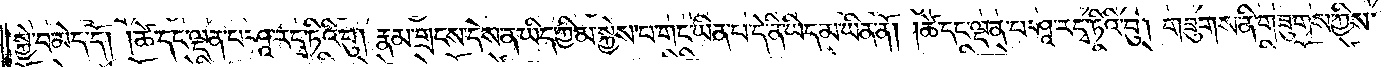སྐྱེ་བ་མེད་དོ། །ཚེ་དང་ལྡན་པ་ཤཱ་ར་དྭ་ཏིའི་བུ། རྣམ་གྲངས་དེས་ན་ཡིད་ཀྱི་མ་སྐྱེས་པ་གང་ཡིན་པ་དེ་ནི་ཡིད་མ་ཡིན་ནོ། །ཚེ་དང་ལྡན་པ་ཤཱ་ར་དྭ་ཏིའི་བུ། གཟུགས་ནི་གཟུགས་ཀྱིས་
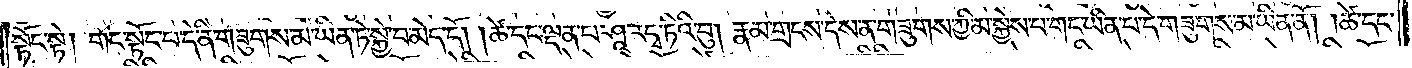སྟོང་སྟེ། གང་སྟོང་པ་དེ་ནི་གཟུགས་མ་ཡིན་ཏེ་སྐྱེ་བ་མེད་དོ། །ཚེ་དང་ལྡན་པ་ཤཱ་ར་དྭ་ཏིའི་བུ། རྣམ་གྲངས་དེས་ན་གཟུགས་ཀྱི་མ་སྐྱེས་པ་གང་ཡིན་པ་དེ་གཟུགས་མ་ཡིན་ནོ། །ཚེ་དང་
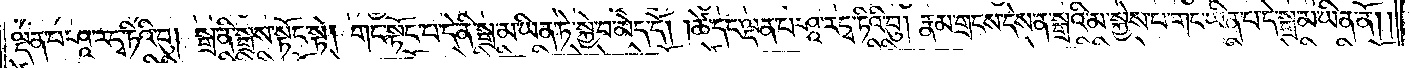ལྡན་པ་ཤཱ་ར་དྭ་ཏིའི་བུ། སྒྲ་ནི་སྒྲས་སྟོང་སྟེ། གང་སྟོང་པ་དེ་ནི་སྒྲ་མ་ཡིན་ཏེ་སྐྱེ་བ་མེད་དོ། །ཚེ་དང་ལྡན་པ་ཤཱ་ར་དྭ་ཏིའི་བུ། རྣམ་གྲངས་དེས་ན་སྒྲའི་མ་སྐྱེས་པ་གང་ཡིན་པ་དེ་སྒྲ་མ་ཡིན་ནོ། །
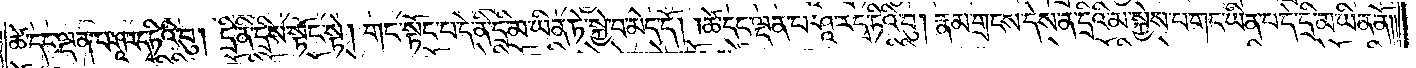ཚེ་དང་ལྡན་པ་ཤཱ་ར་དྭ་ཏིའི་བུ། དྲི་ནི་དྲིས་སྟོང་སྟེ། གང་སྟོང་པ་དེ་ནི་དྲི་མ་ཡིན་ཏེ་སྐྱེ་བ་མེད་དོ། །ཚེ་དང་ལྡན་པ་ཤཱ་ར་དྭ་ཏིའི་བུ། རྣམ་གྲངས་དེས་ན་དྲིའི་མ་སྐྱེས་པ་གང་ཡིན་པ་དེ་དྲི་མ་ཡིན་ནོ། །
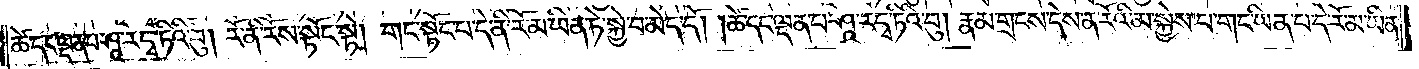ཚེ་དང་ལྡན་པ་ཤཱ་ར་དྭ་ཏིའི་བུ། རོ་ནི་རོས་སྟོང་སྟེ། གང་སྟོང་པ་དེ་ནི་རོ་མ་ཡིན་ཏེ་སྐྱེ་བ་མེད་དོ། །ཚེ་དང་ལྡན་པ་ཤཱ་ར་དྭ་ཏིའི་བུ། རྣམ་གྲངས་དེས་ན་རོའི་མ་སྐྱེས་པ་གང་ཡིན་པ་དེ་རོ་མ་ཡིན་
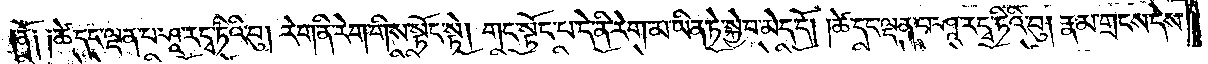ནོ། །ཚེ་དང་ལྡན་པ་ཤཱ་ར་དྭ་ཏིའི་བུ། རེག་ནི་རེག་གིས་སྟོང་སྟེ། གང་སྟོང་པ་དེ་ནི་རེག་མ་ཡིན་ཏེ་སྐྱེ་བ་མེད་དོ། །ཚེ་དང་ལྡན་པ་ཤཱ་ར་དྭ་ཏིའི་བུ། རྣམ་གྲངས་དེས་
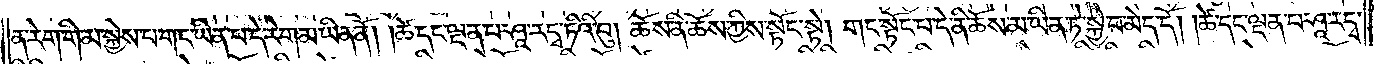ན་རེག་གི་མ་སྐྱེས་པ་གང་ཡིན་པ་དེ་རེག་མ་ཡིན་ནོ། །ཚེ་དང་ལྡན་པ་ཤཱ་ར་དྭ་ཏིའི་བུ། ཆོས་ནི་ཆོས་ཀྱིས་སྟོང་སྟེ། གང་སྟོང་པ་དེ་ནི་ཆོས་མ་ཡིན་ཏེ་སྐྱེ་བ་མེད་དོ། །ཚེ་དང་ལྡན་པ་ཤཱ་ར་དྭ་
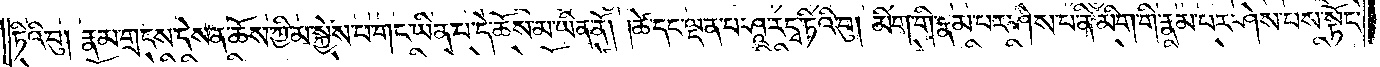ཏིའི་བུ། རྣམ་གྲངས་དེས་ན་ཆོས་ཀྱི་མ་སྐྱེས་པ་གང་ཡིན་པ་དེ་ཆོས་མ་ཡིན་ནོ། །ཚེ་དང་ལྡན་པ་ཤཱ་ར་དྭ་ཏིའི་བུ། མིག་གི་རྣམ་པར་ཤེས་པ་ནི་མིག་གི་རྣམ་པར་ཤེས་པས་སྟོང་
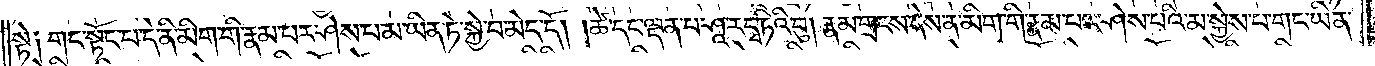སྟེ། གང་སྟོང་པ་དེ་ན་མིག་གི་རྣམ་པར་ཤེས་པ་མ་ཡིན་ཏེ་སྐྱེ་བ་མེད་དོ། །ཚེ་དང་ལྡན་པ་ཤཱ་ར་དྭ་ཏིའི་བུ། རྣམ་གྲངས་དེས་ན་མིག་གི་རྣམ་པར་ཤེས་པའི་མ་སྐྱེས་པ་གང་ཡིན་
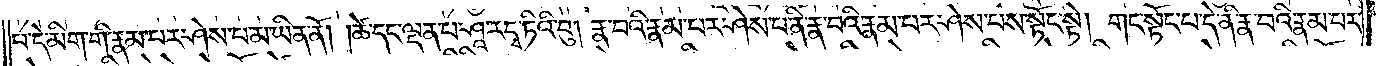པ་དེ་མིག་གི་རྣམ་པར་ཤེས་པ་མ་ཡིན་ནོ། །ཚེ་དང་ལྡན་པ་ཤཱ་ར་དྭ་ཏིའི་བུ། རྣ་བའི་རྣམ་པར་ཤེས་པ་ནི་རྣ་བའི་རྣམ་པར་ཤེས་པས་སྟོང་སྟེ། གང་སྟོང་པ་དེ་ནི་རྣ་བའི་རྣམ་པར་
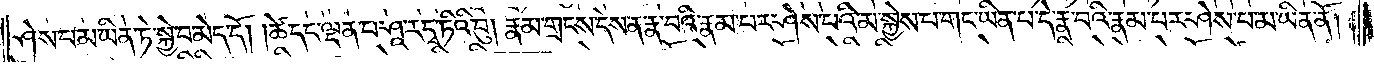ཤེས་པ་མ་ཡིན་ཏེ་སྐྱེ་བ་མེད་དོ། །ཚེ་དང་ལྡན་པ་ཤཱ་ར་དྭ་ཏིའི་བུ། རྣམ་གྲངས་དེས་ན་རྣ་བའི་རྣམ་པར་ཤེས་པའི་མ་སྐྱེས་པ་གང་ཡིན་པ་དེ་རྣ་བའི་རྣམ་པར་ཤེས་པ་མ་ཡིན་ནོ། །
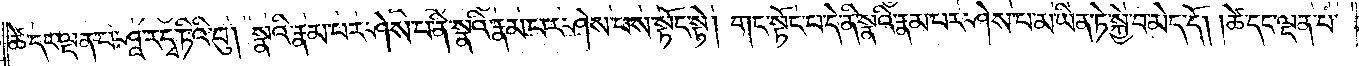ཚེ་དང་ལྡན་པ་ཤཱ་ར་དྭ་ཏིའི་བུ། སྣའི་རྣམ་པར་ཤེས་པ་ནི་སྣའི་རྣམ་པར་ཤེས་པས་སྟོང་སྟེ། གང་སྟོང་པ་དེ་ནི་སྣའི་རྣམ་པར་ཤེས་པ་མ་ཡིན་ཏེ་སྐྱེ་བ་མེད་དོ། །ཚེ་དང་ལྡན་པ་
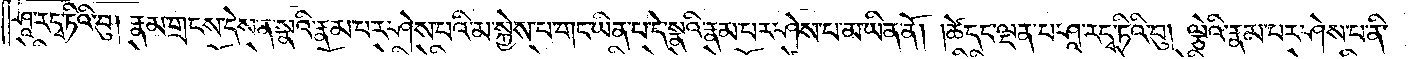ཤཱ་ར་དྭ་ཏིའི་བུ། རྣམ་གྲངས་དེས་ན་སྣའི་རྣམ་པར་ཤེས་པའི་མ་སྐྱེས་པ་གང་ཡིན་པ་དེ་སྣའི་རྣམ་པར་ཤེས་པ་མ་ཡིན་ནོ། །ཚེ་དང་ལྡན་པ་ཤཱ་ར་དྭ་ཏིའི་བུ། ལྕེའི་རྣམ་པར་ཤེས་པ་ནི་
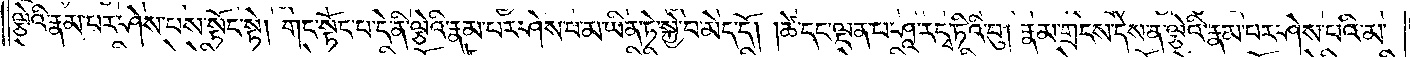ལྕེའི་རྣམ་པར་ཤེས་པས་སྟོང་སྟེ། གང་སྟོང་པ་དེ་ནི་ལྕེའི་རྣམ་པར་ཤེས་པ་མ་ཡིན་ཏེ་སྐྱེ་བ་མེད་དོ། །ཚེ་དང་ལྡན་པ་ཤཱ་ར་དྭ་ཏིའི་བུ། རྣམ་གྲངས་དེས་ན་ལྕེའི་རྣམ་པར་ཤེས་པའི་མ་
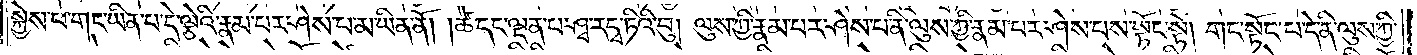སྐྱེས་པ་གང་ཡིན་པ་དེ་ལྕེའི་རྣམ་པར་ཤེས་པ་མ་ཡིན་ནོ། །ཚེ་དང་ལྡན་པ་ཤཱ་ར་དྭ་ཏིའི་བུ། ལུས་ཀྱི་རྣམ་པར་ཤེས་པ་ནི་ལུས་ཀྱི་རྣམ་པར་ཤེས་པས་སྟོང་སྟེ། གང་སྟོང་པ་དེ་ནི་ལུས་ཀྱི་
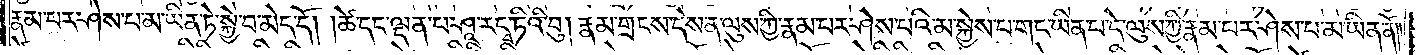རྣམ་པར་ཤེས་པ་མ་ཡིན་ཏེ་སྐྱེ་བ་མེད་དོ། །ཚེ་དང་ལྡན་པ་ཤཱ་ར་དྭ་ཏིའི་བུ། རྣམ་གྲངས་དེས་ན་ལུས་ཀྱི་རྣམ་པར་ཤེས་པའི་མ་སྐྱེས་པ་གང་ཡིན་པ་དེ་ལུས་ཀྱི་རྣམ་པར་ཤེས་པ་མ་ཡིན་ནོ། །
